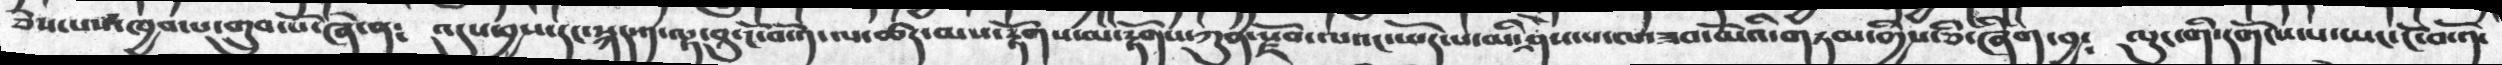ཅེས་པས་ཁྱབ་པ་གྲུབ་པོ་ཞེ་ན༴   འདུས་བྱས་དང་སྐད་༡་ལྟ་བུ་ངོ་བསོད་ལ་ཚད་མས་རྟོགས་མ་རྟོགས་ཀུན་སྫོབ་ལའང་ཡོད་པ་མི་ཤེས་པ་ལ་ཟབ་མོའི་གཏམ་གྱིས་ཅི་ཞིག་བྱ༴   ལུང་གི་དདགོངས་པ་ཡང་ངོ་བོ་༡་
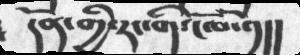དོན་གྱི་རང་གི་ངོ་བོ་༡།།
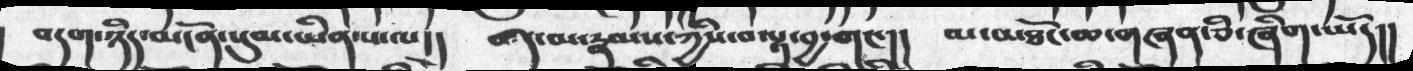བདག་ཉིད་མངོན་སུམ་ཡིན་པ་ལ།།  ཚད་མ་རྣམས་ཀྱིས་བལྟ་བྱ་གང་།།   མ་མཐོང་ཆ་གཞན་ཅི་ཞིག་ཡོད།།
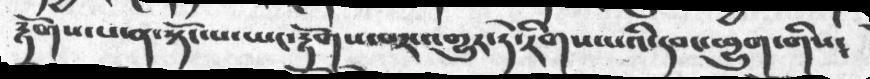རྟོགས་པ་ན་སྟོང་པ་ཡང་རྟོགས་པར་འགྱུར་ཏེ་རིགས་པའི་དབང་ཕྱུག་གིས༴
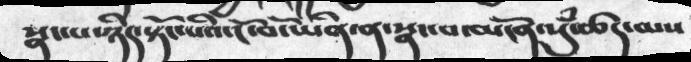སྣང་པ་ཉིད་སྟོང་པའི་ངོ་བོ་ཡིན་ན་སྣང་བ་མངོན་སུཾ་ཚད་མས
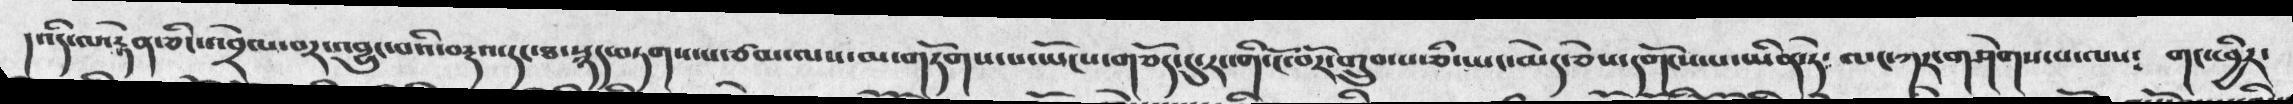།འདི་ལ་རྟེན་ཅིང་འབྲེལ་བར་འབྱུང་པའི་བརྡའ་དང་ཐ་སྙད་བཏགས་པ་ཙམ་ལས་མ་གཏོགས་པ་ཡོངས་གཅོད་དུ་རང་གི་ངོ་བོར་གྲུབ་པ་ཅི་ཡང་མེད་ཅེས་དགོངས་པ་ཡིན་ཏེ༴   གང་ཕྱིར་
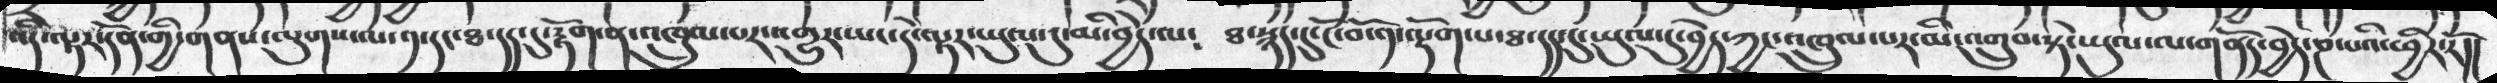འདི་ལྟར་དོན་གྱི་གནས་ལུགས་ལ་༡་དང་ཐ་དད་དུ་རྟོག་ན་འཁྲུལ་པར་འགྱུར་ཡང་དེ་ལྟར་ཡུལ་དུ་མི་བྱེད་ལ༴ ཐ་སྙད་དུ་ངོ་བོ་༡་ལྡོག་པ་ཐ་དད་དུ་ཡུལ་དུ་བྱེད་ཀྱང་འཁྲུལ་པར་མི་འགྲུབ་སྟེ་ཡུལ་ལ་གནོད་བྱེད་ཎ་པའི་ཕྱིར་རོ།།
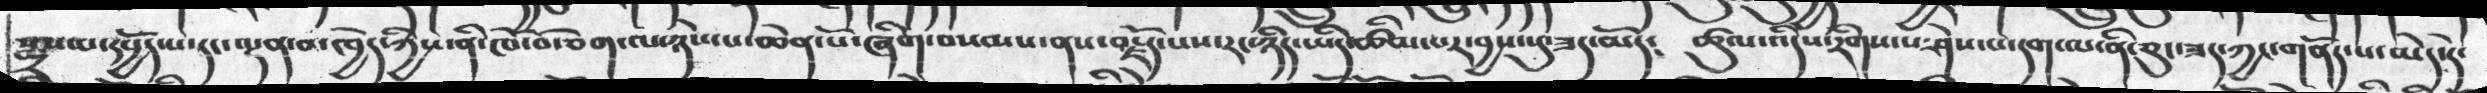སྨྲས་པ་དཔྱོད་པ་དང་ལྡན་བ་ཁྱེད་ཀྱིས་ནི་ཁོ་བོ་ཅག་ལ་ཉེས་པ་ཆེན་པོ་ཞིག་བསམས་ནས་བརྗོད་པས་རང་ཉིད་ཡིད་ཚིམ་པར་བྱས་སུ་ཟད་མོད༴  ཚུལ་འདིས་རིགས་པ་ཤེས་པ་དག་ལ་ནི་ཅུང་ཟད་ཀྱང་གནོད་པ་མེད་དེ་
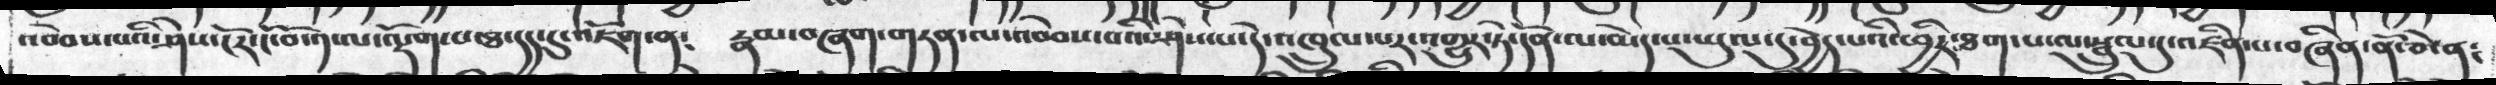འབེབས་པའི་ཤེས་ངོར་ངོ་བོ་༡་ལ་ལྡོག་པ་ཐ་དད་དུ་འཇོག་ན༴  རྣམ་བཞག་གཏན་ལ་འབེབས་པའི་ཤེས་པ་དེ་འཁྲུལ་པར་འགྱུར་ཏེ་དོན་ལ་མེད་པ་ཡུལ་དུ་བྱེད་པའི་ཕྱིར་ཐག་པ་ལ་སྦྲུལ་དུ་འཛིན་པ་བཞིན་ནོ་ཅེ་ན༴
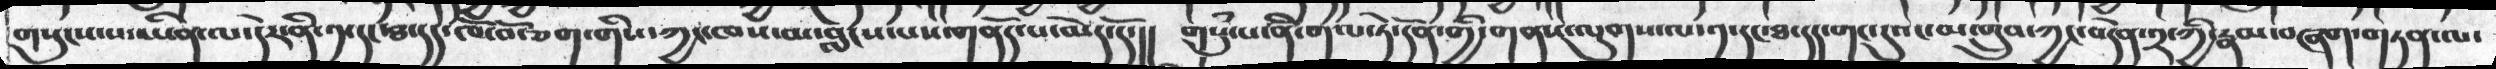གསུངས་པ་ཡིན་ལ་དེར་ནི་༡་དང་ཐ་དད་ཁོ་བོ་ཅག་གིས་ཀྱང་ལཁས་བླངས་པས་གནོད་པ་མེད་དོ་།། གསུཾ་པ་ནི་གལ་ཏེ་དོན་གྱི་གནས་ལུགས་ལ་༡་དང་ཐ་དད་གང་དུའང་མ་གྲུབ་ཀྱང་བདེན་༢་ཀྱི་རྣམ་བཞག་གཏན་ལ་
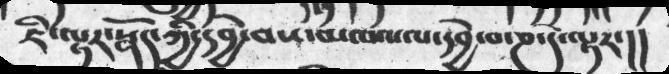ཇི་ལྟར་སྣོད་ཀྱི་དབྱེ་བས་མཁའ་ལ་དབྱེ་བ་ཎ་དེ་ལྟར་།།
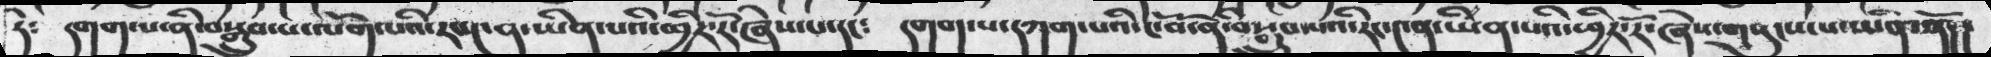ཏེ༴  དགག་པ་ནི་བསྒྲུབ་པ་ལོག་པའི་རང་༤ན་ཡིན་པའི་ཕྱིར་རོ་ཞེས་པ་དང༴  དགག་པ་དཀག་པའི་ངོ་བོ་ནི་བསྒྲུབ་པའི་རང་༤ན་ཡིན་པའི་ཕྱིར་རོ་ཞེས་གསུངས་པ་ཡིན་ནོ།།
